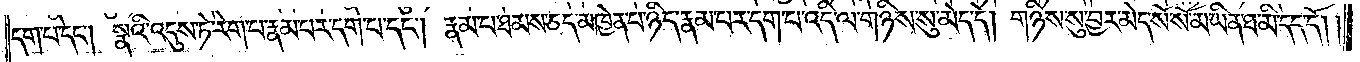དག་པ་དང༌། སྣའི་འདུས་ཏེ་རེག་པ་རྣམ་པར་དག་པ་དང༌། རྣམ་པ་ཐམས་ཅད་མཁྱེན་པ་ཉིད་རྣམ་པར་དག་པ་འདི་ལ་གཉིས་སུ་མེད་དེ། གཉིས་སུ་བྱར་མེད་སོ་སོ་མ་ཡིན་ཐ་མི་དད་དོ། །
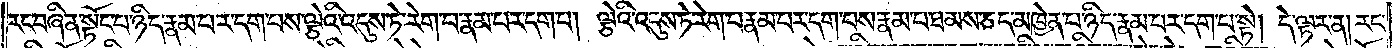རང་བཞིན་སྟོང་པ་ཉིད་རྣམ་པར་དག་པས་ལྕེའི་འདུས་ཏེ་རེག་པ་རྣམ་པར་དག་པ། ལྕེའི་འདུས་ཏེ་རེག་པ་རྣམ་པར་དག་པས་རྣམ་པ་ཐམས་ཅད་མཁྱེན་པ་ཉིད་རྣམ་པར་དག་པ་སྟེ། དེ་ལྟར་ན། རང་
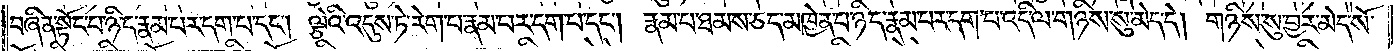བཞིན་སྟོང་པ་ཉིད་རྣམ་པར་དག་པ་དང༌། ལྕེའི་འདུས་ཏེ་རེག་པ་རྣམ་པར་དག་པ་དང༌། རྣམ་པ་ཐམས་ཅད་མཁྱེན་པ་ཉིད་རྣམ་པར་དག་པ་འདི་ལ་གཉིས་སུ་མེད་དེ། གཉིས་སུ་བྱར་མེད་སོ་
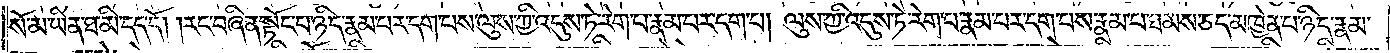སོ་མ་ཡིན་ཐ་མི་དད་དོ། །རང་བཞིན་སྟོང་པ་ཉིད་རྣམ་པར་དག་པས་ལུས་ཀྱི་འདུས་ཏེ་རེག་པ་རྣམ་པར་དག་པ། ལུས་ཀྱི་འདུས་ཏེ་རེག་པ་རྣམ་པར་དག་པས་རྣམ་པ་ཐམས་ཅད་མཁྱེན་པ་ཉིད་རྣམ་
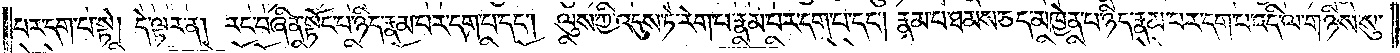པར་དག་པ་སྟེ། དེ་ལྟར་ན། རང་བཞིན་སྟོང་པ་ཉིད་རྣམ་པར་དག་པ་དང༌། ལུས་ཀྱི་འདུས་ཏེ་རེག་པ་རྣམ་པར་དག་པ་དང༌། རྣམ་པ་ཐམས་ཅད་མཁྱེན་པ་ཉིད་རྣམ་པར་དག་པ་འདི་ལ་གཉིས་སུ་
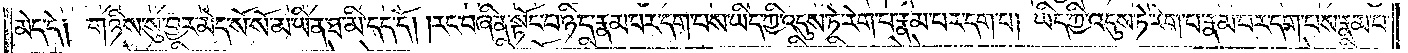མེད་དེ༑ གཉིས་སུ་བྱར་མེད་སོ་སོ་མ་ཡིན་ཐ་མི་དད་དོ། །རང་བཞིན་སྟོང་པ་ཉིད་རྣམ་པར་དག་པས་ཡིད་ཀྱི་འདུས་ཏེ་རེག་པ་རྣམ་པར་དག་པ། ཡིད་ཀྱི་འདུས་ཏེ་རེག་པ་རྣམ་པར་དག་པས་རྣམ་པ་
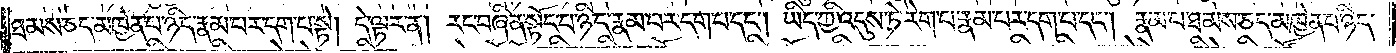ཐམས་ཅད་མཁྱེན་པ་ཉིད་རྣམ་པར་དག་པ་སྟེ། དེ་ལྟར་ན། རང་བཞིན་སྟོང་པ་ཉིད་རྣམ་པར་དག་པ་དང༌། ཡིད་ཀྱི་འདུས་ཏེ་རེག་པ་རྣམ་པར་དག་པ་དང༌། རྣམ་པ་ཐམས་ཅད་མཁྱེན་པ་ཉིད་
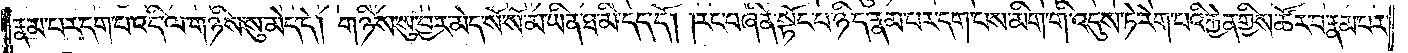རྣམ་པར་དག་པ་འདི་ལ་གཉིས་སུ་མེད་དེ། གཉིས་སུ་བྱར་མེད་སོ་སོ་མ་ཡིན་ཐ་མི་དད་དོ། །རང་བཞིན་སྟོང་པ་ཉིད་རྣམ་པར་དག་པས་མིག་གི་འདུས་ཏེ་རེག་པའི་རྐྱེན་གྱིས་ཚོར་བ་རྣམ་པར་
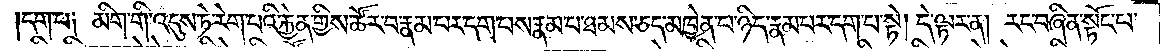དག་པ༑ མིག་གི་འདུས་ཏེ་རེག་པའི་རྐྱེན་གྱིས་ཚོར་བ་རྣམ་པར་དག་པས་རྣམ་པ་ཐམས་ཅད་མཁྱེན་པ་ཉིད་རྣམ་པར་དག་པ་སྟེ། དེ་ལྟར་ན། རང་བཞིན་སྟོང་པ་
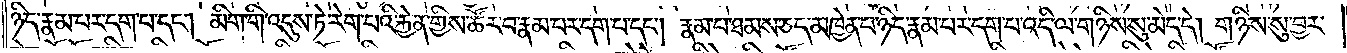ཉིད་རྣམ་པར་དག་པ་དང༌། མིག་གི་འདུས་ཏེ་རེག་པའི་རྐྱེན་གྱིས་ཚོར་བ་རྣམ་པར་དག་པ་དང༌། རྣམ་པ་ཐམས་ཅད་མཁྱེན་པ་ཉིད་རྣམ་པར་དག་པ་འདི་ལ་གཉིས་སུ་མེད་དེ། གཉིས་སུ་བྱར་
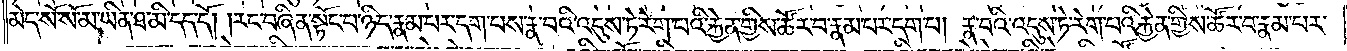མེད་སོ་སོ་མ་ཡིན་ཐ་མི་དད་དོ། །རང་བཞིན་སྟོང་པ་ཉིད་རྣམ་པར་དག་པས་རྣ་བའི་འདུས་ཏེ་རེག་པའི་རྐྱེན་གྱིས་ཚོར་བ་རྣམ་པར་དག་པ། རྣ་བའི་འདུས་ཏེ་རེག་པའི་རྐྱེན་གྱིས་ཚོར་བ་རྣམ་པར་
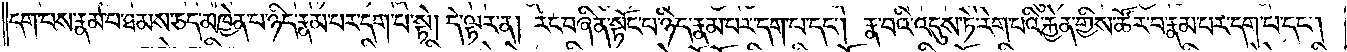དག་པས་རྣམ་པ་ཐམས་ཅད་མཁྱེན་པ་ཉིད་རྣམ་པར་དག་པ་སྟེ། དེ་ལྟར་ན། རང་བཞིན་སྟོང་པ་ཉིད་རྣམ་པར་དག་པ་དང༌། རྣ་བའི་འདུས་ཏེ་རེག་པའི་རྐྱེན་གྱིས་ཚོར་བ་རྣམ་པར་དག་པ་དང༌།
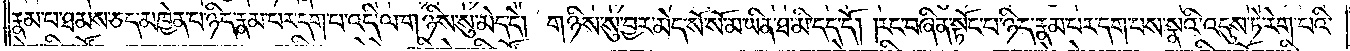རྣམ་པ་ཐམས་ཅད་མཁྱེན་པ་ཉིད་རྣམ་པར་དག་པ་འདི་ལ་གཉིས་སུ་མེད་དེ། གཉིས་སུ་བྱར་མེད་སོ་སོ་མ་ཡིན་ཐ་མི་དད་དོ། །རང་བཞིན་སྟོང་པ་ཉིད་རྣམ་པར་དག་པས་སྣའི་འདུས་ཏེ་རེག་པའི་
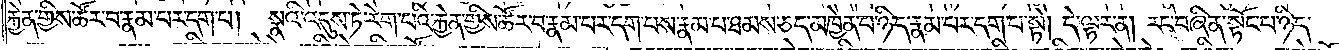རྐྱེན་གྱིས་ཚོར་བ་རྣམ་པར་དག་པ། སྣའི་འདུས་ཏེ་རེག་པའི་རྐྱེན་གྱིས་ཚོར་བ་རྣམ་པར་དག་པས་རྣམ་པ་ཐམས་ཅད་མཁྱེན་པ་ཉིད་རྣམ་པར་དག་པ་སྟེ། དེ་ལྟར་ན། རང་བཞིན་སྟོང་པ་ཉིད་
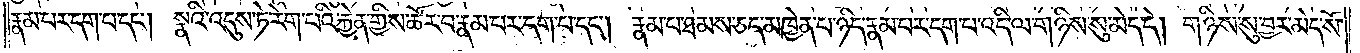རྣམ་པར་དག་པ་དང༌། སྣའི་འདུས་ཏེ་རེག་པའི་རྐྱེན་གྱིས་ཚོར་བ་རྣམ་པར་དག་པ་དང༌། རྣམ་པ་ཐམས་ཅད་མཁྱེན་པ་ཉིད་རྣམ་པར་དག་པ་འདི་ལ་གཉིས་སུ་མེད་དེ། གཉིས་སུ་བྱར་མེད་སོ་
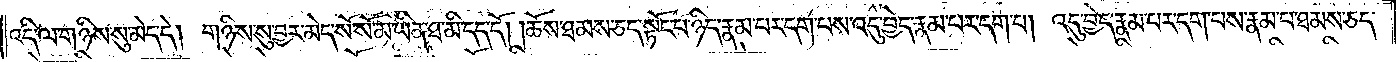འདི་ལ་གཉིས་སུ་མེད་དེ། གཉིས་སུ་བྱར་མེད་སོ་སོ་མ་ཡིན་ཐ་མི་དད་དོ། །ཆོས་ཐམས་ཅད་སྟོང་པ་ཉིད་རྣམ་པར་དག་པས་འདུ་བྱེད་རྣམ་པར་དག་པ། འདུ་བྱེད་རྣམ་པར་དག་པས་རྣམ་པ་ཐམས་ཅད་
